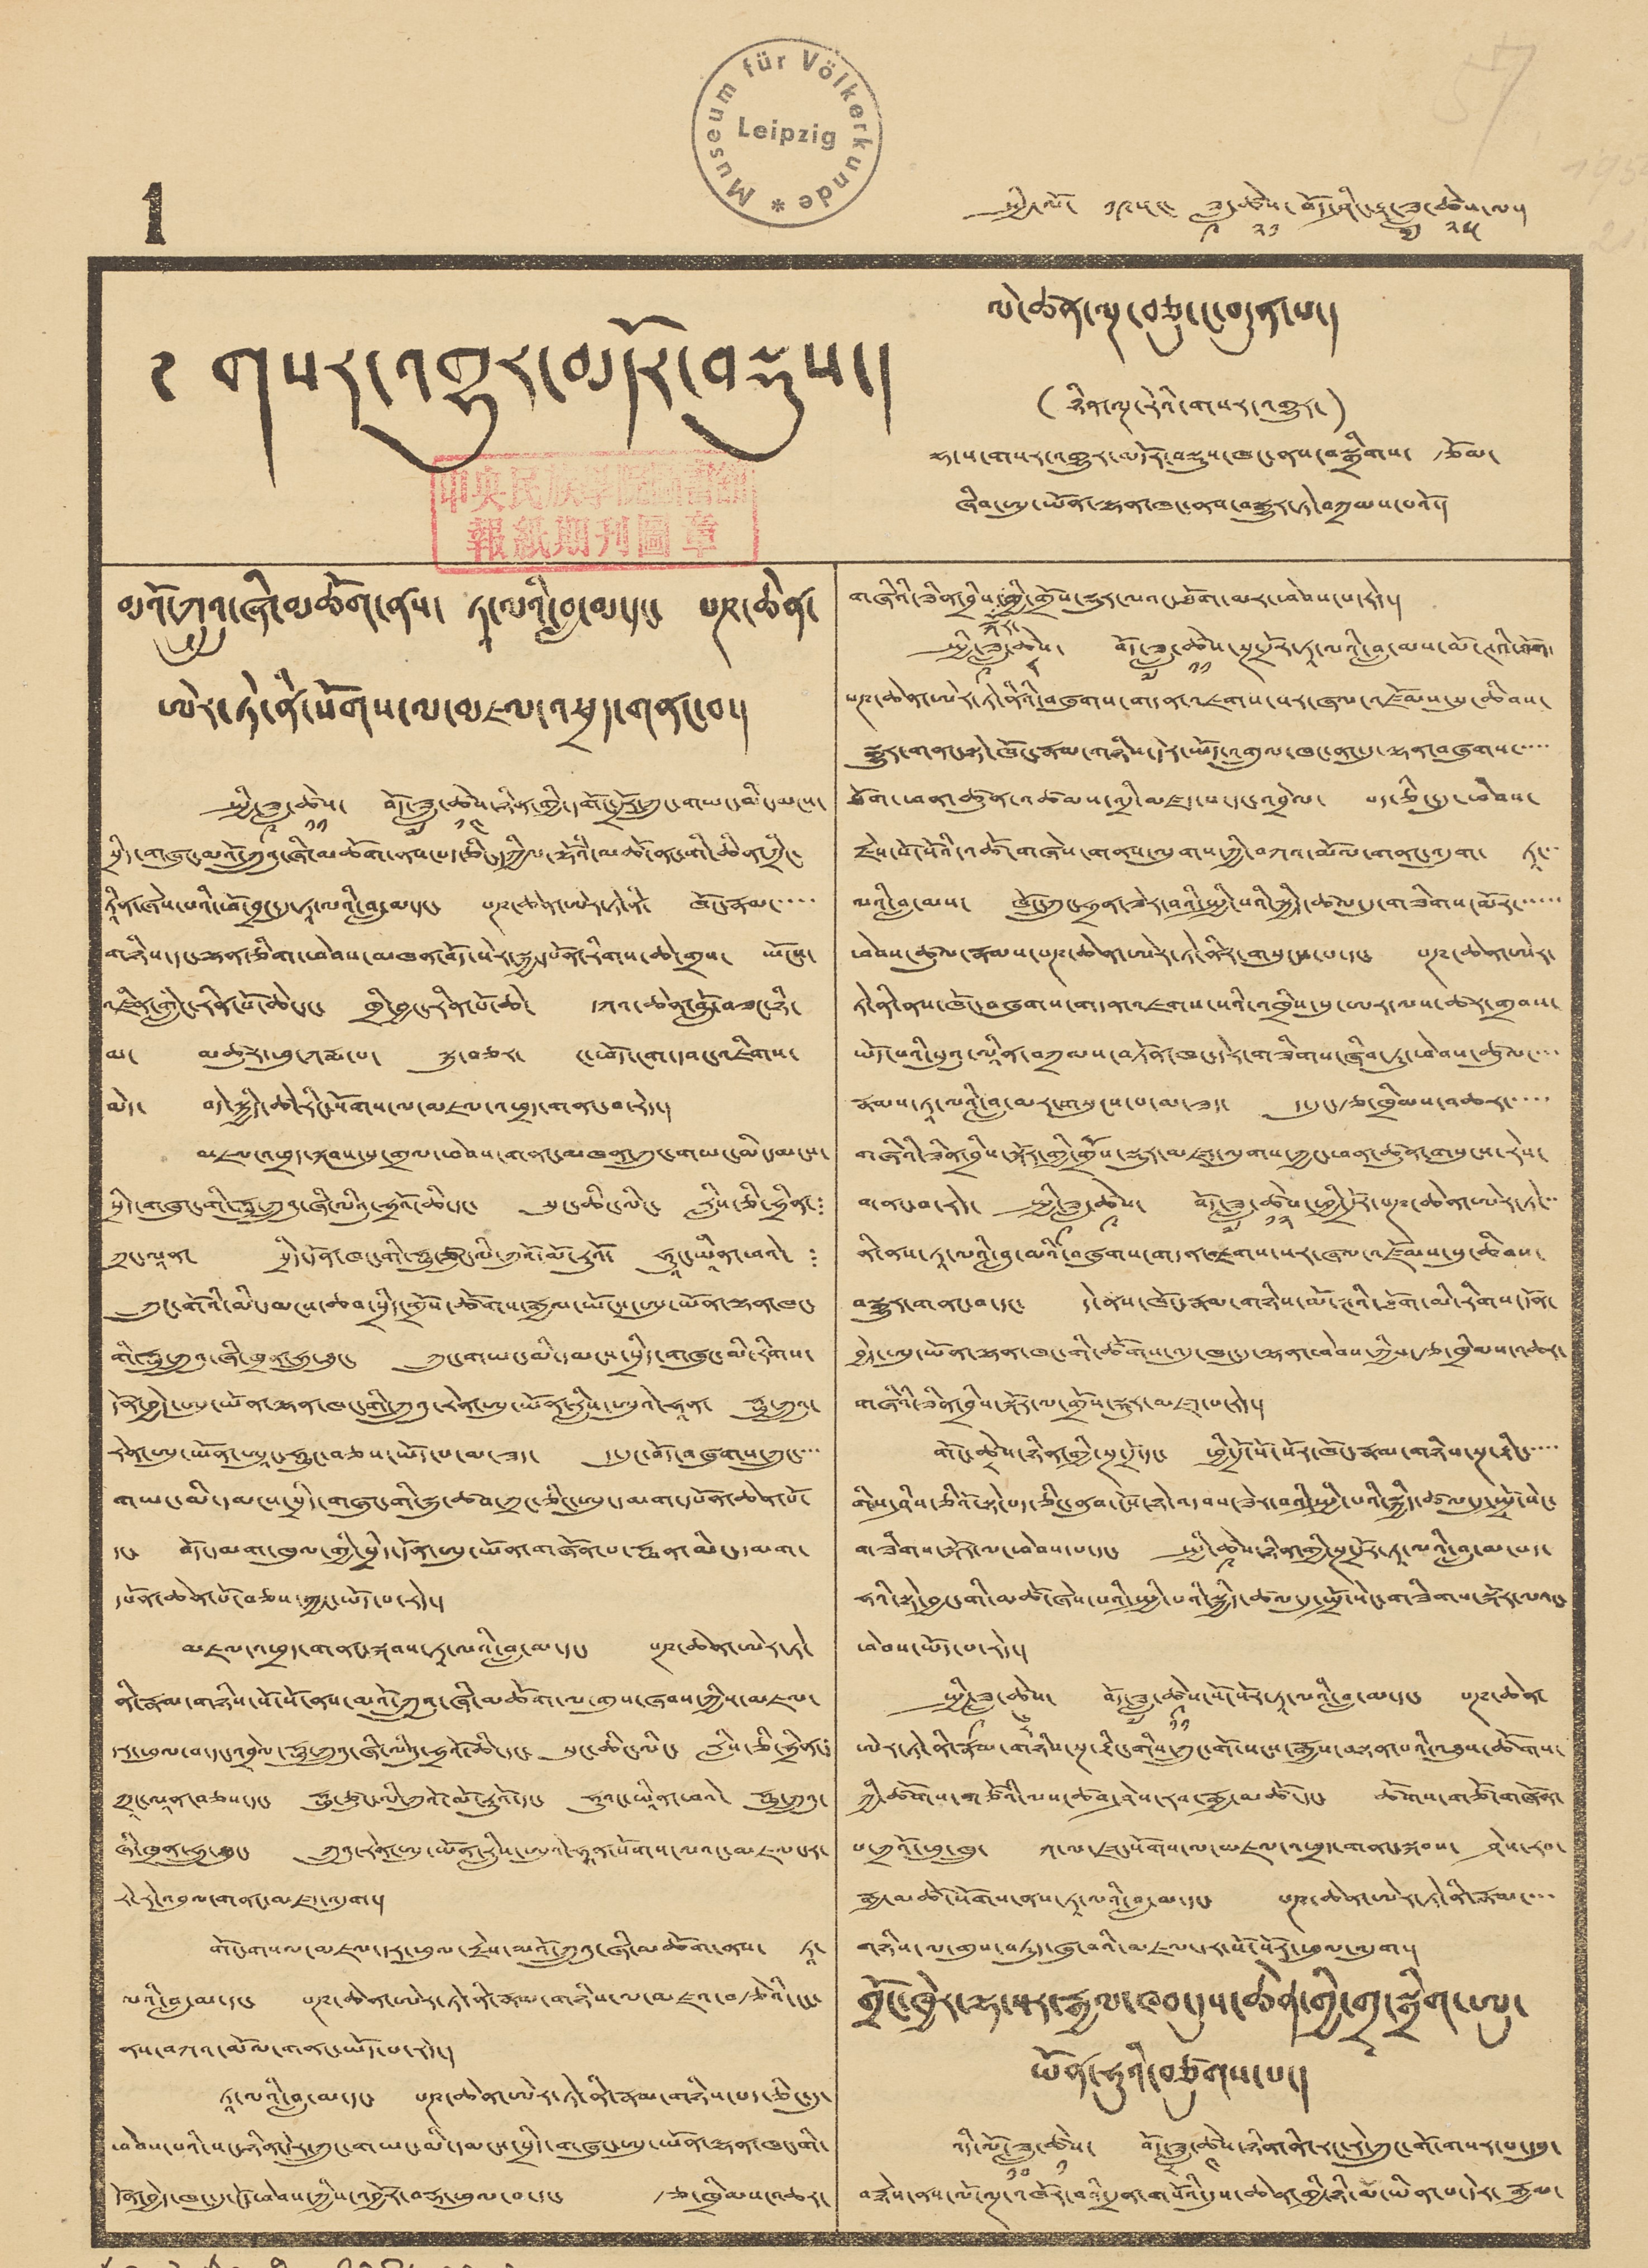1 སྤྱི་ལོ་ ༡༩༥༤ ཟླ་
༩
ཚེས་
༢༡
བོད་ཤིང་རྟ་ཟླ་
༧
ཚེས་
༢༥
ལ་།
གསར་འགྱུར་མདོར་བསྡུས་།
ལེ་ཚན་ལྔ་བཅུ་ང་བདུན་པ་།
(ཉིན་ལྔ་རེའི་གསར་འགྱུར་)
ལྷ་ས་གསར་འགྱུར་མདོར་བསྡུས་ཁང་ནས་བསྒྲིགས་ རྩོམ་
ཞིབ་ཨུ་ཡོན་ལྷན་ཁང་ནས་བསྒྱུར་ཏེ་བཀྲམས་པའོ་།
མའོ་ཀྲུའུ་ཞི་མཆོག་ནས་ ཏཱ་ལའི་བླ་མ་དང་ པཎ་ཆེན་
ཨེར་ཏེ་ནི་སོགས་ལ་མཇལ་འཕྲད་གནང་བ་།
སྤྱི་ཟླ་
༩
ཚེས་
༡༡
བོད་ཟླ་
༧
ཚེས་
༡༤
ཉིན་གྱི་དགོང་དྲོར་ཀྲུང་གཡང་མི་དམངས་
སྲིད་གཞུང་མའོ་ཀྲུའུ་ཞི་མཆོག་ནས་པད་ཅིང་དཀྱིལ་ལྷོའི་མཚོ་ནང་གི་ཆིན་ཀྲིང་
ཏཱིན་ཞེས་པའི་ཕོ་བྲང་དུ་ཏཱ་ལའི་བླ་མ་དང་ པཎ་ཆེན་ཨེར་ཏེ་ནི་ ཁོང་རྣམ་་་་་
གཉིས་དང་ལྷན་ཅིག་ཕེབས་མཁན་བོད་སེར་སྐྱ་དཔོན་རིགས་ཆེ་གྲས་ ཡོངས་
འཛིན་གླིང་རིན་པོ་ཆེ་དང་ ཁྲི་བྱང་རིན་པོ་ཆེ་ དཀའ་ཆེན་བློ་བཟང་ཉི་
མ་ མཚུར་ཕུ་ཀརྨ་པ་ སྐུ་བཅར་ ང་ཕོད་ངག་དབང་འཇིགས་
མེད་ བདེ་སྐྱིད་ཚེ་རིང་སོགས་ལ་མཇལ་འཕྲད་གནང་བ་རེད་།
མཇལ་འཕྲད་སྐབས་སུ་གྲལ་ཕེབས་གནང་མཁན་ཀྲུང་གཡང་མི་དམངས་
སྲིད་གཞུང་གི་ཧྥུ་ཀྲུའུ་ཞི་ལིའུ་ཧྲའོ་ཆི་དང་ སུང་ཆིང་ལིང་ རླིས་ཅི་ཧྲིན་ །
ཀྲང་ལཱན་ སྲིད་དོན་ཁང་གི་ཧྥུ་ཙུང་ལི་ཀུའོ་མོ་རུའོ་ ཧཱུང་ཡཱིན་ཕའེ་ །
ཀྲུང་གོའི་མི་དམངས་ཆབ་སྲིད་གྲོས་ཚོགས་རྒྱལ་ཡོངས་ཨུ་ཡོན་ལྷན་ཁང་
གི་ཧྥུ་ཀྲུའུ་ཞིང་ཁྲན་ཧྲུ་ཐུང་ ཀྲུང་གཡང་མི་དམངས་སྲིད་གཞུང་མི་རིགས་
དོན་བྱེད་ཨུ་ཡོན་ལྷན་ཁང་གི་ཀྲུའུ་རེན་ཨུ་ཡོན་རླིས་ཨུའེ་ཧཱན་ ཧྥུ་ཀྲུའུ་
རེན་ཨུ་ཡོན་ཨཱུང་ཧྥུང་བཅས་ཡོད་པ་མ་ཟད་ ད་དུང་བོད་བཞུགས་ཀྲུང་་་་
གཡང་མི་དམངས་སྲིད་གཞུང་གི་སྐུ་ཚབ་ཀྲང་ཅིང་ཨུང་དམག་དཔོན་ཆེན་པོ་
དང་ བོད་དམག་ཁུལ་གྱི་སྲིད་དོན་ཨུ་ཡོན་གཞོན་པ་ཧྥན་མིང་དམག་
དཔོན་ཆེན་པོ་བཅས་ཀྱང་ཡོད་པ་རེད་།
མཇལ་འཕྲད་གནང་སྐབས་ཏཱ་ལའི་བླ་མ་དང་ པཎ་ཆེན་ཨེར་ཏེ་
ནི་རྣམ་གཉིས་སོ་སོ་ནས་མའོ་ཀྲུའུ་ཞི་མཆོག་ལ་གུས་ཞབས་ཀྱིས་མཇལ་
དར་ཕུལ་བ་དང་འབྲེལ་ཧྥུ་ཀྲུའུ་ཞི་ལིའུ་ཧྲའོ་ཆིང་དང་ སུང་ཆིང་ལིང་ རླིས་ཅི་ཧྲིན་།
ཀྲཱང་ལཱན་བཅས་དང་ ཧྥུ་ཙུང་ལི་ཀུའོ་མོ་རུའོ་དང་ ཧུའང་ཡཱིན་ཕའེ་ ཧྥུ་ཀྲུའུ་
ཞི་ཁྲན་ཧྲུ་ཐུང་ ཀྲུའུ་རེན་ཨུ་ཡོན་རླིས་ཨུའེ་ཧཱན་སོགས་ལའང་མཇལ་དར་
རེ་རེ་འབུལ་གནང་མཛད་འདུག་།
གོང་གསལ་མཇལ་དར་ཕུལ་རྗེས་མའོ་ཀྲུའུ་ཞི་མཆོག་ནས་ ཏཱ་
ལའི་བླ་མ་དང་ པཎ་ཆེན་ཨེར་ཏེ་ནི་རྣམ་གཉིས་ལ་མཛའ་བརྩེའི་ངང་
ནས་བཀའ་མོལ་གནང་ཡོད་པ་རེད་།
ཏཱ་ལའི་བླ་མ་དང་ པཎ་ཆེན་ཨེར་ཏེ་ནི་རྣམ་གཉིས་པད་ཅིང་དུ་
ཕེབས་པའི་སང་ཉིན་དེར་ཀྲུང་གཡང་མི་དམངས་སྲིད་གཞུང་ཨུ་ཡོན་ལྷན་ཁང་གི་
དོན་བྱེད་ཁང་དུ་ངོ་ཕེབས་ཀྱིས་འབྱོར་བརྡ་ཕུལ་བ་དང་ རྩ་ཁྲིམས་འཆར་
གཞིའི་ཟིན་བྲིས་
སྐོར་
གྱི་གྲོས་སྡུར་ལའང་ཐོག་མར་ཕེབས་པ་རེད་།
སྤྱི་ཟླ་
༩
ཚེས་
༨
བོད་ཟླ་
༧
ཚེས་
༡༡
སྔ་དྲོར་ཏཱ་ལའི་བླ་མས་མོ་ཊའི་ཐོག་
པཎ་ཆེན་ཨེར་ཏེ་ནིའི་བཞུགས་གདན་འཇགས་སར་ཞལ་འཛོམས་སུང་ཆིབས་
སྒྱུར་གནང་སྟེ་ཁོང་རྣམ་གཉིས་དེར་ཡོད་འགྲུལ་ཁང་ནང་དུ་ལྷན་བཞུགས་་་་་
ཐོག་ཕན་ཚུན་འཚམས་འདྲི་མཛད་པ་དང་འབྲེལ་ པད་ཅིང་དུ་ཕེབས་
རྗེས་སོ་སོའི་འཚོ་གཞེས་གནས་ལུགས་ཀྱི་བཀའ་མོལ་གནང་འདུག་ ཏཱ་་་
ལའི་བླ་མས་ ཁོང་ཀྲུང་ཧྲན་ཟེར་བའི་སྤྱི་པའི་སྐྱིད་ཚལ་དུ་གཟིགས་མོར་་་་་་
ཕེབས་ཚུལ་རྣམས་པཎ་ཆེན་ཨེར་ཏེ་ནིར་གསུངས་པ་དང་ པཎ་ཆེན་ཨེར་
ཏེ་ནི་ནས་ཁོང་བཞུགས་གདན་འཇགས་པའི་འཁྲིས་སུ་ཨར་ལས་ཚར་གྲབས་
ཡོད་པའི་སུའུ་ལཱིན་བཀྲམས་བཏོན་ཁང་དེར་གཟིགས་ཞིབ་ཏུ་ཕེབས་ཚུལ་་་་
རྣམས་ཏཱ་ལའི་བླ་མར་གསུངས་པ་དང་ ད་དུང་རྩ་ཁྲིམས་འཆར་་་་་
གཞིའི་ཟིན་བྲིས་སྐོར་གྱི་གྲོས་སྡུར་མཛད་ལུགས་ཀྱང་ཕན་ཚུན་གསུངས་རེས་
གནང་བ་རེད་ སྤྱི་ཟླ་
༩
ཚེས་
༩
བོད་ཟླ་
༧
ཚེས་
༡༢
ཕྱི་དྲོར་པཎ་ཆེན་ཨེར་ཏེ་་་
ནི་ནས་ཏཱ་ལའི་བླ་མའི་བཞུགས་གདན་འཇགས་སར་ཞལ་འཛོམས་སུ་ཆིབས་
བསྒྱུར་གནང་བ་དང་ དེ་ནས་ཁོང་རྣམ་གཉིས་མོ་ཊའི་ཐོག་མི་རིགས་དོན་
བྱེད་ཨུ་ཡོན་ལྷན་ཁང་གི་ཚོགས་འདུ་ཁང་དུ་ལྷན་ཕེབས་ཀྱིས་རྩ་ཁྲིམས་འཆར་
གཞིའི་ཟིན་བྲིས་སྐོར་ལ་གྲོས་སྡུར་མཛད་པ་རེད་།
ངོང་ཚེས་
༨
ཉིན་གྱི་སྔ་དྲོ་དང་ ཕྱི་དྲོ་སོ་སོར་ཁོང་རྣམ་གཉིས་སྔ་རྟིང་་་་་
གིས་ཤིས་ཅིའི་སྟེ་པད་ཅིང་ནུབ་ངོས་ཉེ་འདབས་ཟེར་བའི་སྤྱི་པའི་སྐྱིད་ཚལ་དུ་སྤྲོ་སེང་
གཟིགས་སྐོར་ལ་ཕེབས་པ་དང་ སྤྱི་ཚེས་
༩
ཉིན་གྱི་སྔ་དྲོར་ཏཱ་ལའི་བླ་མ་པད་
ཧའི་སྟེ་བྱང་གི་མཚོ་ཞེས་པའི་སྤྱི་པའི་སྐྱིད་ཚལ་དུ་སྤྲོ་སེང་གཟིགས་སྐོར་ལའང་
ཕེབས་ཡོད་པ་རེད་།
སྤྱི་ཟླ་
༩
ཚེས་
༦
༨
བོད་ཟླ་
༧
ཚེས་
༩
༡༡
སོ་སོར་ཏཱ་ལའི་བླ་མ་དང་ པཎ་ཆེན་
ཨེར་ཏེ་ནི་རྣམ་གཉིས་སྔ་རྟིང་གིས་ཀྲུང་གོ་སངས་རྒྱས་བསྟན་པའི་འཐུས་ཚོགས་
ཀྱི་ཚོགས་གཙོའི་ལས་ཚབ་ཤེས་རབ་རྒྱ་མཚོ་དང་ ཚོགས་གཙོ་གཞོན་
པ་ཀྲའོ་ཕུ་ཁྲུ་ ཀ་ལ་ཛང་སོགས་ལ་མཇལ་འཕྲད་གནང་སྐབས་ ཤེས་རབ་
རྒྱ་མཚོ་སོགས་ནས་ཏཱ་ལའི་བླ་མ་དང་ པཎ་ཆེན་ཨེར་ཏེ་ནི་རྣམ་་་་
གཉིས་ལ་གུས་བཏུད་ཞུ་བའི་མཇལ་དར་སོ་སོར་ཕུལ་འདུག་།
གྲོང་ཁྱེར་ལྷ་སར་རྒྱལ་ཁབ་དུས་ཆེན་གྱི་གྲྭ་སྒྲིག་ཨུ་
ཡོན་ཧུའི་བཙུགས་པ་།
འདི་ལོ་ཟླ་
༡༠
ཚེས་
༡
བོད་ཟླ་
༨
ཚེས་
༤
ཉིན་ནི་རང་རེ་ཀྲུང་གོ་གསར་པ་དབུ་
བརྙེས་ནས་ལོ་ལྔ་འཁོར་བའི་དྲན་གསོའི་དུས་ཆེན་གྱི་ཉི་མོ་ཡིན་པ་དེར་རྒྱལ་
